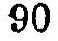90
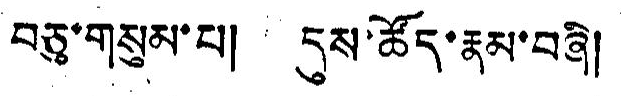བཅུ་གསུམ་པ། དུས་ཚོད་རྣམ་བཞི།
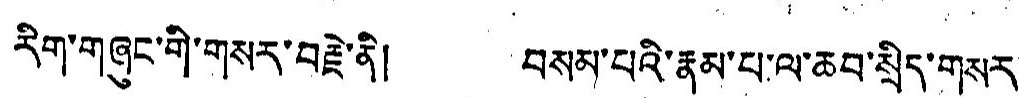རིག་གཞུང་གི་གསར་བརྗེ་ནི། བསམ་པའི་རྣམ་པ་ལ་ཆབ་སྲིད་གསར་
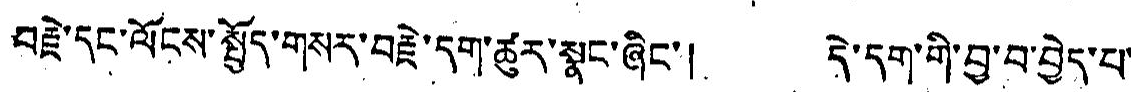བརྗེ་དང་ལོངས་སྤྱོད་གསར་བརྗེ་དགུ་ཚུར་སྣང་ཞིང་། དེ་དག་གི་བྱ་བ་བྱེད་པ་
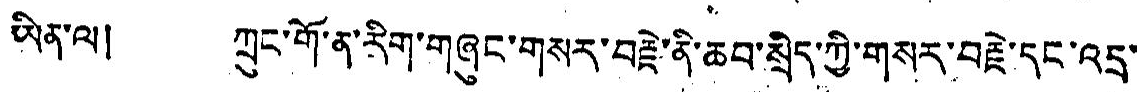ཡིན་ལ། ཀྲུང་གོ་ན་རིག་གཞུང་གསར་བརྗེ་ནི་ཆབ་སྲིད་ཀྱི་གསར་བརྗེ་དང་འདྲ་
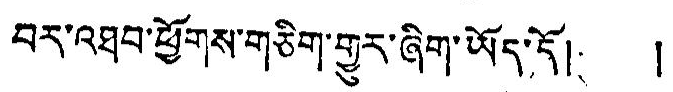བར་འཐབ་ཕྱོགས་གཅིག་གྱུར་ཞིག་ཡོད་དོ། །
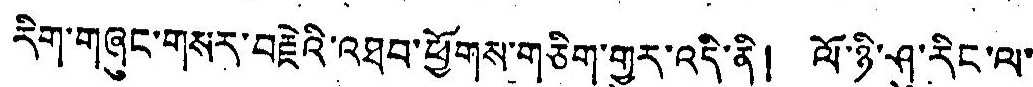རིག་གཞུང་གསར་བརྗེའི་འཐབ་ཕྱོགས་གཅིག་གྱུར་འདི་ནི། ལོ་ཉི་ཤུ་རིང་ལ་
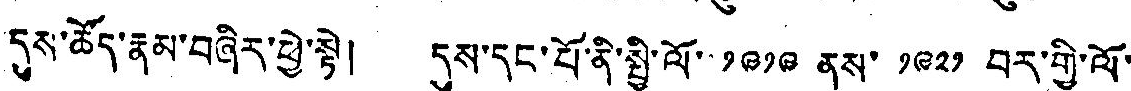དུས་ཚོད་རྣམ་བཞིར་ཕྱེ་སྟེ། དུས་དང་པོ་ནི་སྤྱི་ལོ་ ༡༩༡༩ ནས་ ༡༩༢༡ བར་གྱི་ལོ་
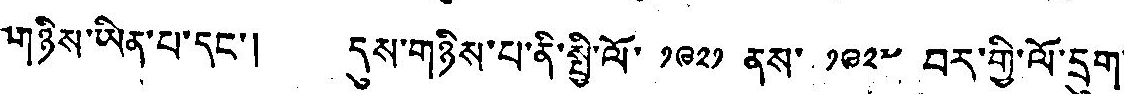གཉིས་ཡིན་པ་དང་། དུས་གཉིས་པ་ནི་སྤྱི་ལོ་ ༡༩༢༡ ནས་ ༡༩༢༧ བར་གྱི་ལོ་དྲུག་
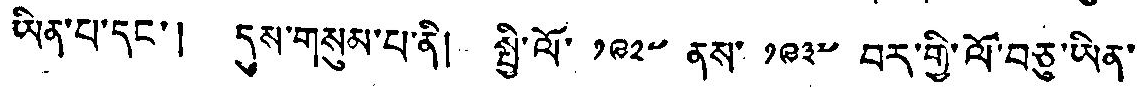ཡིན་པ་དང་། དུས་གསུམ་པ་ནི། སྤྱི་ལོ་ ༡༩༢༧ ནས་ ༡༩༣༧ བར་གྱི་ལོ་བཅུ་ཡིན་
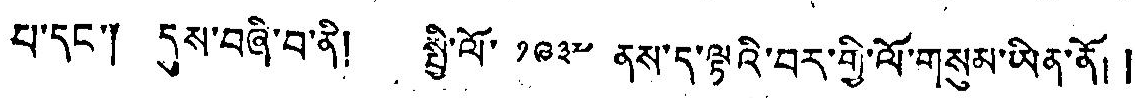པ་དང་༐ དུས་བཞི་བ་ནི། སྤྱི་ལོ་ ༡༩༣༧ ནས་ད་ལྟའི་བར་གྱི་ལོ་གསུམ་ཡིན་ནོ། །
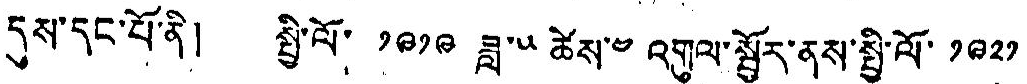དུས་དང་པོ་ནི། སྤྱི་ལོ་ ༡༩༡༩ ཟླ་༥ ཚེས་༤ འགུལ་སྦྱོར་ནས་སྤྱི་ལོ་ ༡༩༢༡
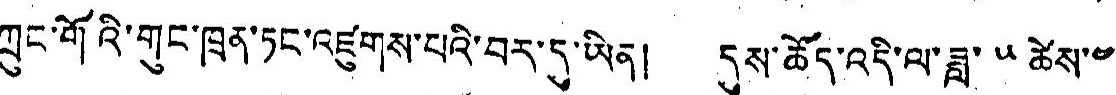ཀྲུང་གོའི་གུང་ཁྲན་ཏང་འཛུགས་པའི་བར་དུ་ཡིན། དུས་ཚོད་འདི་ལ་ཟླ་༥ ཚེས་༤
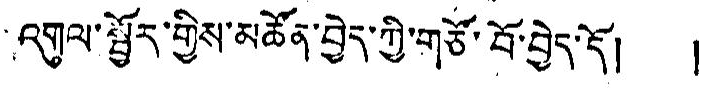འགུལ་སྦྱོར་གྱིས་མཚོན་བྱེད་ཀྱི་གཙོ་བོ་བྱེད་དོ། །
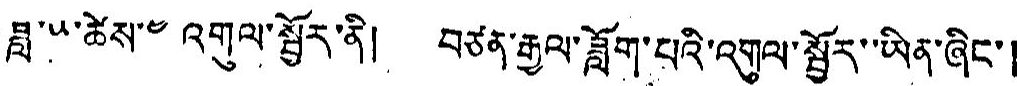ཟླ་༥་ཚེས་༤ འགུལ་སྦྱོར་ནི། བཙན་རྒྱལ་ཟློག་པའི་འགུལ་སྦྱོར་ཡིན་ཞིང་།
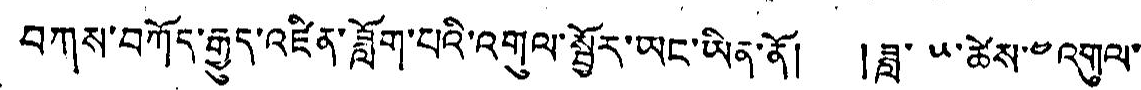བཀས་བཀོད་རྒྱུད་འཛིན་ཟློག་པའི་འགུལ་སྦྱོར་ཡང་ཡིན་ནོ། །ཟླ་ ༥་ཚེས་༤ འགུལ་
